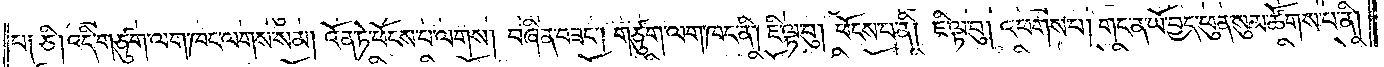པ༑ ཅི། འདི་གཙུག་ལག་ཁང་ལགས་སམ། འོན་ཏེ་ཕོངས་པ་ལགས། བཞིན་བཟང༌། གཙུག་ལག་ཁང་ནི། ཇི་ལྟ་བུ། ཕོངས་པ་ནི། ཇི་ལྟ་བུ། འཕགས་པ། གང་ན་ཡོ་བྱད་ཕུན་སུམ་ཚོགས་པ་ནི།
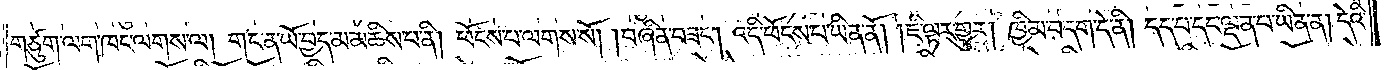གཙུག་ལག་ཁང་ལགས་ལ། གང་ན་ཡོ་བྱད་མ་མཆིས་པ་ནི། ཕོངས་པ་ལགས་སོ། །བཞིན་བཟང༌། འདི་ཕོངས་པ་ཡིན་ནོ། །ཇི་ལྟར་གྱུར། ཁྱིམ་བདག་དེ་ནི། དད་པ་དང་ལྡན་པ་ཡིན་ན། དེའི་
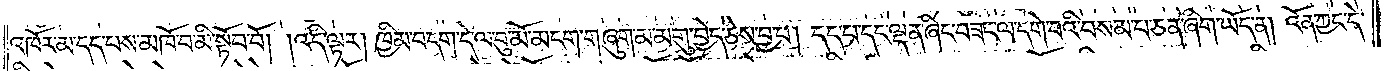འཁོར་མ་དད་པས་མཁོ་བ་མི་སྟོབ་བོ། །འདི་ལྟར། ཁྱིམ་བདག་དེ་ལ་བུ་མོ་མངག་གཞུག་མ་མགུ་བྱེད་ཅེས་བྱ་བ། དད་པ་དང་ལྡན་ཞིང་བཟང་ལ་དགེ་བའི་བསམ་པ་ཅན་ཞིག་ཡོད་ན། འོན་ཀྱང་དེ་
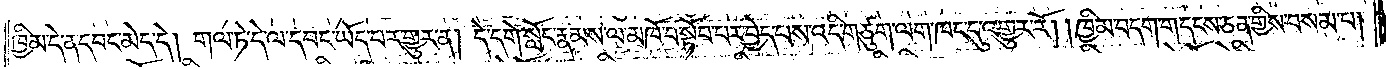ཁྱིམ་དེ་ན་དབང་མེད་དེ། གལ་ཏེ་དེ་ལ་དབང་ཡོད་པར་གྱུར་ན། དེ་དགེ་སློང་རྣམས་ལ་མཁོ་བ་སྟོབ་པར་བྱེད་པས་འདི་གཙུག་ལག་ཁང་དུ་འགྱུར་རོ། །ཁྱིམ་བདག་གདངས་ཅན་གྱིས་བསམ་པ།
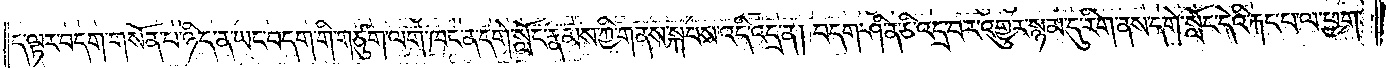ད་ལྟར་བདག་གསོན་པ་ཉིད་ན་ཡང་བདག་གི་གཙུག་ལག་ཁང་ན་དགེ་སློང་རྣམས་ཀྱི་གནས་སྐབས་འདི་འདྲ་ན། བདག་ཤི་ན་ཅི་འདྲ་བར་འགྱུར་སྙམ་དུ་རིག་ནས་དགེ་སློང་དེའི་རྐང་པ་ལ་ཕྱག་
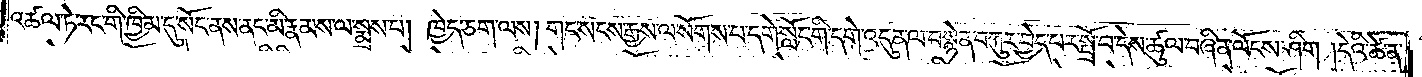འཚལ་ཏེ་རང་གི་ཁྱིམ་དུ་སོང་ནས་ནང་མི་རྣམས་ལ་སྨྲས་པ། ཁྱེད་ཅག་ལས། གང་སངས་རྒྱས་ལ་སོགས་པ་དགེ་སློང་གི་དགེ་འདུན་ལ་བསྙེན་བཀུར་བྱེད་པར་སྤྲོ་བ་དེས་ཚུལ་བཞིན་ལོངས་ཤིག །དེའི་ཚེ་ན་
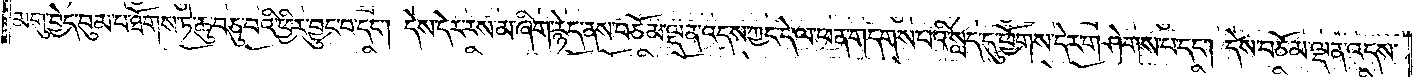མགུ་བྱེད་བུམ་པ་ཐོགས་ཏེ་ཆུ་བཅུ་བའི་ཕྱིར་བྱུང་བ་དང༌། དེས་དེར་རས་མ་ཞིག་རྙེད་ནས་བཅོམ་ལྡན་འདས་ཀྱང་དེ་ལ་ཕན་གདགས་པའི་སླད་དུ་ཕྱོགས་དེར་གཤེགས་པ་དང༌། དེས་བཅོམ་ལྡན་འདས་
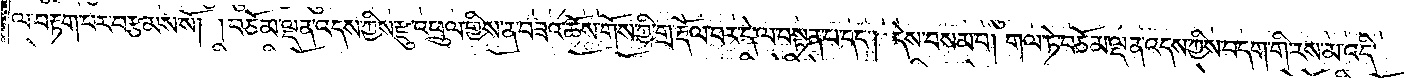ལ་བརྟག་པར་བརྩམས་སོ། །བཅོམ་ལྡན་འདས་ཀྱིས་རྫུ་འཕྲུལ་གྱིས་ན་བཟའ་ཆོས་གོས་ཀྱི་གྲ་རྡོལ་བར་དེ་ལ་བསྟན་པ་དང༌། དེས་བསམ་པ། གལ་ཏེ་བཅོམ་ལྡན་འདས་ཀྱིས་བདག་གི་རས་མ་འདི་
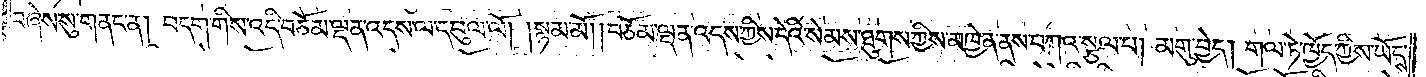བཞེས་སུ་གནང་ན། བདག་གིས་འདི་བཅོམ་ལྡན་འདས་ལ་དབུལ་ལོ། །སྙམ་མོ། །བཅོམ་ལྡན་འདས་ཀྱིས་དེའི་སེམས་ཐུགས་ཀྱིས་མཁྱེན་ནས་བཀའ་སྩལ་པ། མགུ་བྱེད། གལ་ཏེ་ཁྱོད་ཀྱིས་ཡོངས་
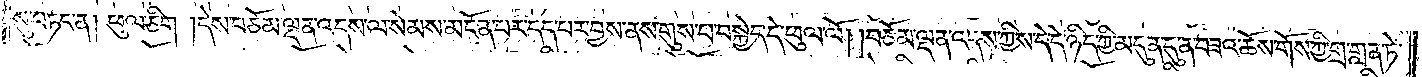སུ་བཏང་ན། ཕུལ་ཅིག །དེས་བཅོམ་ལྡན་འདས་ལ་སེམས་མངོན་པར་དད་པར་བྱས་ནས་གུས་པ་བསྐྱེད་དེ་ཕུལ་ལོ། །བཅོམ་ལྡན་འདས་ཀྱིས་དེ་དེ་ཉིད་ཀྱི་མདུན་དུ་ན་བཟའ་ཆོས་གོས་ཀྱི་གྲ་གླན་ཏེ་
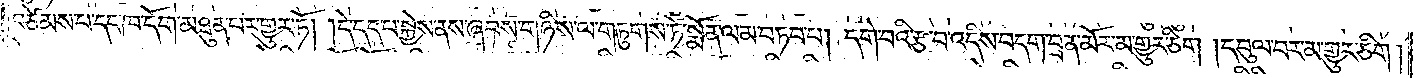བཙེམས་པ་དང་ཁ་དོག་མཐུན་པར་གྱུར་ཏོ། །དེ་དད་པ་སྐྱེས་ནས་ཞབས་གཉིས་ལ་གཏུགས་ཏེ་སྨོན་ལམ་བཏབ་པ། དགེ་བའི་རྩ་བ་འདིས་བདག་བྲན་མོར་མ་གྱུར་ཅིག །དབུལ་བར་མ་གྱུར་ཅིག །
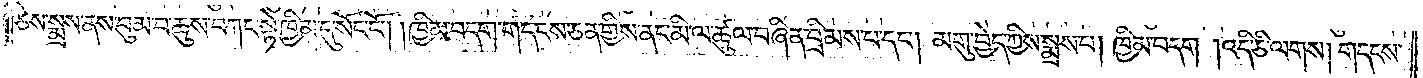ཅེས་སྨྲས་ནས་བུམ་བ་ཆུས་བཀང་སྟེ་ཁྱིམ་དུ་སོང་ངོ༌། །ཁྱིམ་བདག་གདངས་ཅན་གྱིས་ནང་མི་ལ་ཚུལ་བཞིན་བྲིམས་པ་དང༌། མགུ་བྱེད་ཀྱིས་སྨྲས་པ། ཁྱིམ་བདག །འདི་ཅི་ལགས། གདངས་
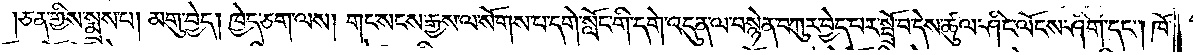།ཅན་གྱིས་སྨྲས་པ། མགུ་བྱེད། ཁྱེད་ཅག་ལས། གང་སངས་རྒྱས་ལ་སོགས་པ་དགེ་སློང་གི་དགེ་འདུན་ལ་བསྙེན་བཀུར་བྱེད་པར་སྤྲོ་བ་དེས་ཚུལ་ཤིང་ལོངས་ཤིག་དང༌། ཁོ་
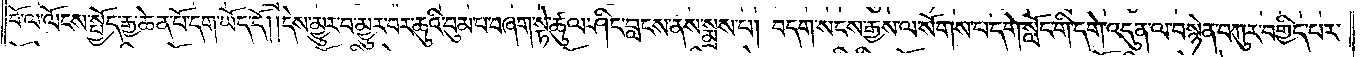བོ་ལ་ལོངས་སྤྱོད་རྒྱ་ཆེན་པོ་དག་ཡོད་དོ། །དེས་མྱུར་བ་མྱུར་བར་ཆུའི་བུམ་པ་བཞག་སྟེ་ཚུལ་ཤིང་བླངས་ནས་སྨྲས་པ། བདག་སངས་རྒྱས་ལ་སོགས་པ་དགེ་སློང་གི་དགེ་འདུན་ལ་བསྙེན་བཀུར་བགྱིད་པར་
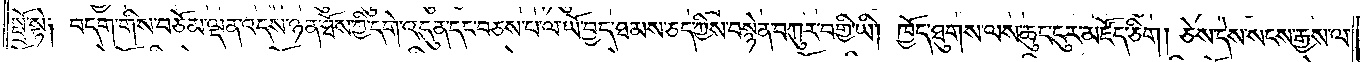སྤྲོ་སྟེ། བདག་གིས་བཅོམ་ལྡན་འདས་ཉན་ཐོས་ཀྱི་དགེ་འདུན་དང་བཅས་པ་ལ་ཡོ་བྱད་ཐམས་ཅད་ཀྱིས་བསྙེན་བཀུར་བགྱི་ཡི། ཁྱོད་ཐུགས་ལས་ཆུང་ངུར་མཛོད་ཅིག །ཅེས་དེས་སངས་རྒྱས་ལ་
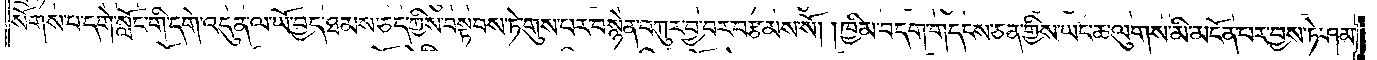སོགས་པ་དགེ་སློང་གི་དགེ་འདུན་ལ་ཡོ་བྱད་ཐམས་ཅད་ཀྱིས་བསྟབས་ཏེ་གུས་པར་བསྙེན་བཀུར་བྱ་བར་བརྩམས་སོ། །ཁྱིམ་བདག་གདངས་ཅན་གྱིས་ཡང་ཆ་ལུགས་མི་མངོན་པར་བྱས་ཏེ་ཤམ་
